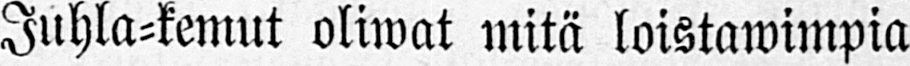Juhla-kemut oliwat mitä loistawimpia
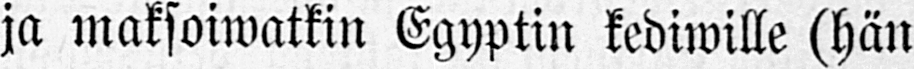ja maksoiwatkin Egyptin kediwille (hän
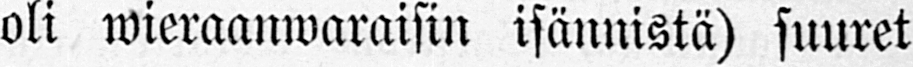oli wieraanwaraisin isännistä) suuret
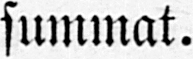summat.
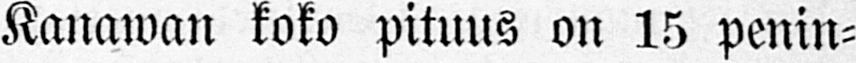Kanawan koko pituus on 15 penin-
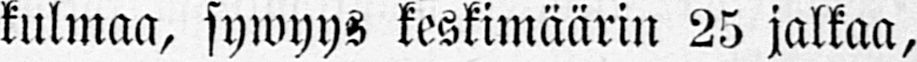kulmaa, sywyys keskimäärin 25 jalkaa,
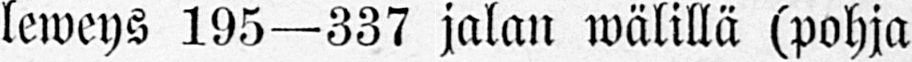leweys 195—337 jalan wälillä (pohja
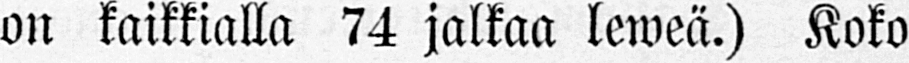on kaikkialla 74 jalkaa leweä.) Koko
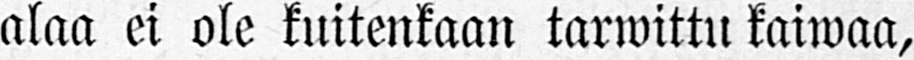alaa ei ole kuitenkaan tarwittu kaiwaa,
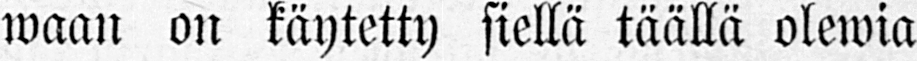waan on käytetty siellä täällä olewia
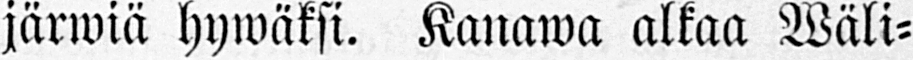järwiä hywäksi. Kanawa alkaa Wäli-
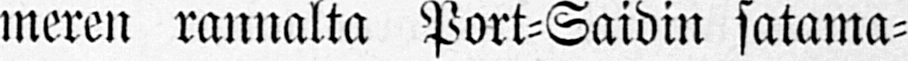meren rannalta Port-Saidin satama-
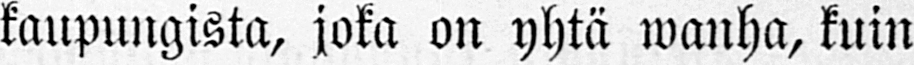kaupungista, joka on yhtä wanha, kuin
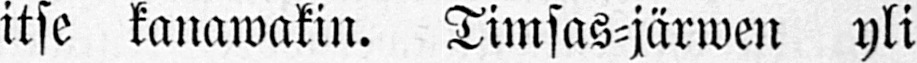itse kanawakin. Timsas-järwen yli
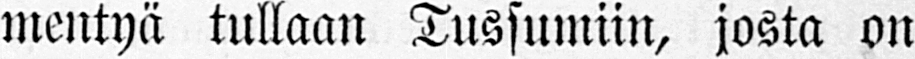mentyä tullaan Tussumiin, josta on
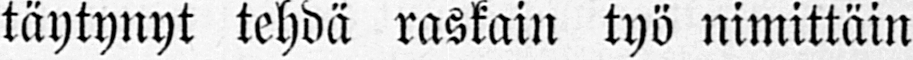täytynyt tehdä raskain työ nimittäin
